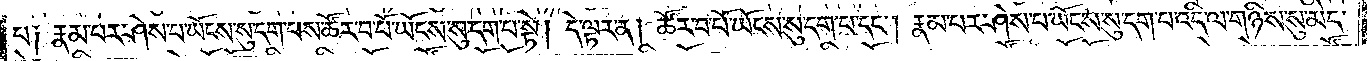པ༑ རྣམ་པར་ཤེས་པ་ཡོངས་སུ་དག་པས་ཚོར་བ་པོ་ཡོངས་སུ་དག་པ་སྟེ། དེ་ལྟར་ན། ཚོར་བ་པོ་ཡོངས་སུ་དག་པ་དང༌། རྣམ་པར་ཤེས་པ་ཡོངས་སུ་དག་པ་འདི་ལ་གཉིས་སུ་མེད་
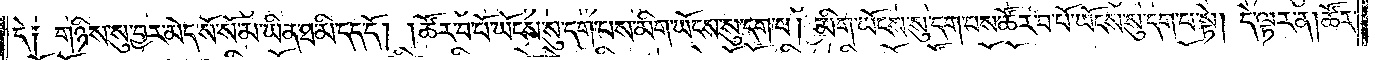དེ༑ གཉིས་སུ་བྱར་མེད་སོ་སོ་མ་ཡིན་ཐ་མི་དད་དོ། །ཚོར་བ་པོ་ཡོངས་སུ་དག་པས་མིག་ཡོངས་སུ་དག་པ། མིག་ཡོངས་སུ་དག་པས་ཚོར་བ་པོ་ཡོངས་སུ་དག་པ་སྟེ། དེ་ལྟར་ན། ཚོར་
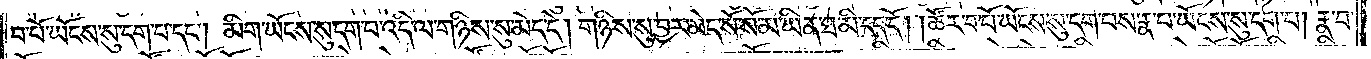བ་པོ་ཡོངས་སུ་དག་པ་དང༌། མིག་ཡོངས་སུ་དག་པ་འདི་ལ་གཉིས་སུ་མེད་དེ། གཉིས་སུ་བྱར་མེད་སོ་སོ་མ་ཡིན་ཐ་མི་དད་དོ། །ཚོར་བ་པོ་ཡོངས་སུ་དག་པས་རྣ་བ་ཡོངས་སུ་དག་པ། རྣ་བ་
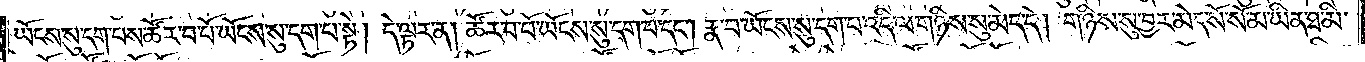ཡོངས་སུ་དག་པས་ཚོར་བ་པོ་ཡོངས་སུ་དག་པ་སྟེ། དེ་ལྟར་ན། ཚོར་བ་པོ་ཡོངས་སུ་དག་པ་དང༌། རྣ་བ་ཡོངས་སུ་དག་པ་འདི་ལ་གཉིས་སུ་མེད་དེ། གཉིས་སུ་བྱར་མེད་སོ་སོ་མ་ཡིན་ཐ་མི་
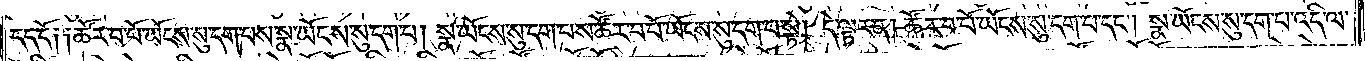དད་དོ༑ ༑ཚོར་བ་པོ་ཡོངས་སུ་དག་པས་སྣ་ཡོངས་སུ་དག་པ། སྣ་ཡོངས་སུ་དག་པས་ཚོར་བ་པོ་ཡོངས་སུ་དག་པ་སྟེ། དེ་ལྟར་ན། ཚོར་བ་པོ་ཡོངས་སུ་དག་པ་དང༌། སྣ་ཡོངས་སུ་དག་པ་འདི་ལ་
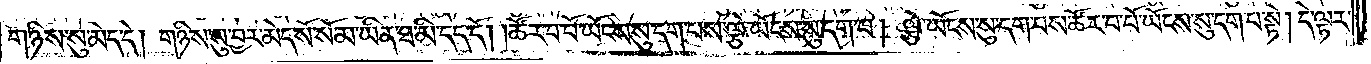གཉིས་སུ་མེད་དེ། གཉིས་སུ་བྱར་མེད་སོ་སོ་མ་ཡིན་ཐ་མི་དད་དོ། །ཚོར་བ་པོ་ཡོངས་སུ་དག་པས་ལྕེ་ཡོངས་སུ་དག་པ། ལྕེ་ཡོངས་སུ་དག་པས་ཚོར་བ་པོ་ཡོངས་སུ་དག་པ་སྟེ། དེ་ལྟར་
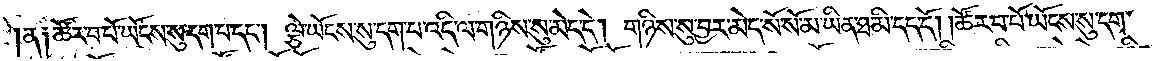ན༑ ཚོར་བ་པོ་ཡོངས་སུ་དག་པ་དང༌། ལྕེ་ཡོངས་སུ་དག་པ་འདི་ལ་གཉིས་སུ་མེད་དེ། གཉིས་སུ་བྱར་མེད་སོ་སོ་མ་ཡིན་ཐ་མི་དད་དོ། །ཚོར་བ་པོ་ཡོངས་སུ་དག་
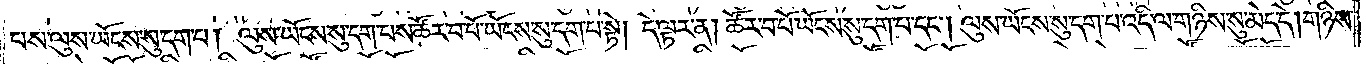པས་ལུས་ཡོངས་སུ་དག་པ། ལུས་ཡོངས་སུ་དག་པས་ཚོར་བ་པོ་ཡོངས་སུ་དག་པ་སྟེ། དེ་ལྟར་ན། ཚོར་བ་པོ་ཡོངས་སུ་དག་པ་དང༌། ལུས་ཡོངས་སུ་དག་པ་འདི་ལ་གཉིས་སུ་མེད་དེ། གཉིས་
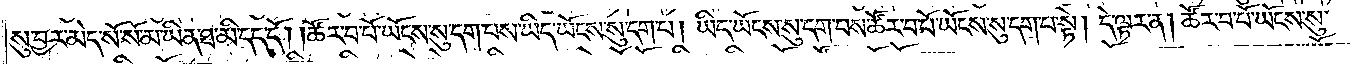སུ་བྱར་མེད་སོ་སོ་མ་ཡིན་ཐ་མི་དད་དོ། །ཚོར་བ་པོ་ཡོངས་སུ་དག་པས་ཡིད་ཡོངས་སུ་དག་པ། ཡིད་ཡོངས་སུ་དག་པས་ཚོར་བ་པོ་ཡོངས་སུ་དག་པ་སྟེ། དེ་ལྟར་ན། ཚོར་བ་པོ་ཡོངས་སུ་
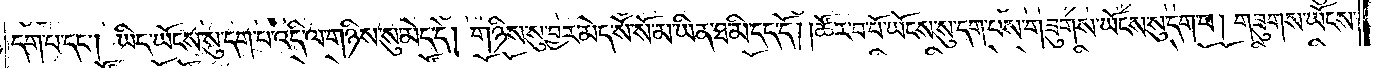དག་པ་དང༌། ཡིད་ཡོངས་སུ་དག་པ་འདི་ལ་གཉིས་སུ་མེད་དེ། གཉིས་སུ་བྱར་མེད་སོ་སོ་མ་ཡིན་ཐ་མི་དད་དོ། །ཚོར་བ་པོ་ཡོངས་སུ་དག་པས་གཟུགས་ཡོངས་སུ་དག་པ། གཟུགས་ཡོངས་
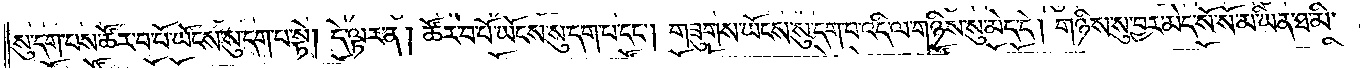སུ་དག་པས་ཚོར་བ་པོ་ཡོངས་སུ་དག་པ་སྟེ། དེ་ལྟར་ན། ཚོར་བ་པོ་ཡོངས་སུ་དག་པ་དང༌། གཟུགས་ཡོངས་སུ་དག་པ་འདི་ལ་གཉིས་སུ་མེད་དེ། གཉིས་སུ་བྱར་མེད་སོ་སོ་མ་ཡིན་ཐ་མི་
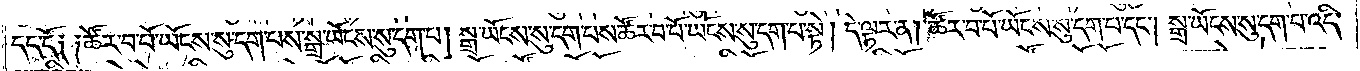དད་དོ༑ ༑ཚོར་བ་པོ་ཡོངས་སུ་དག་པས་སྒྲ་ཡོངས་སུ་དག་པ། སྒྲ་ཡོངས་སུ་དག་པས་ཚོར་བ་པོ་ཡོངས་སུ་དག་པ་སྟེ། དེ་ལྟར་ན། ཚོར་བ་པོ་ཡོངས་སུ་དག་པ་དང༌། སྒྲ་ཡོངས་སུ་དག་པ་འདི་
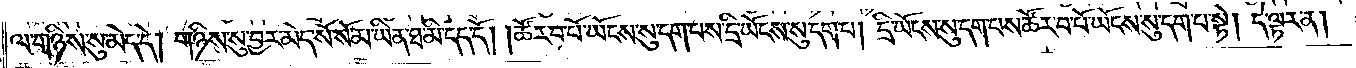ལ་གཉིས་སུ་མེད་དེ། གཉིས་སུ་བྱར་མེད་སོ་སོ་མ་ཡིན་ཐ་མི་དད་དོ། །ཚོར་བ་པོ་ཡོངས་སུ་དག་པས་དྲི་ཡོངས་སུ་དག་པ། དྲི་ཡོངས་སུ་དག་པས་ཚོར་བ་པོ་ཡོངས་སུ་དག་པ་སྟེ། དེ་ལྟར་ན།
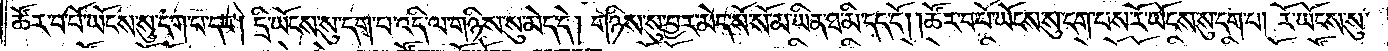ཚོར་བ་པོ་ཡོངས་སུ་དག་པ་དང༌། དྲི་ཡོངས་སུ་དག་པ་འདི་ལ་གཉིས་སུ་མེད་དེ། གཉིས་སུ་བྱར་མེད་སོ་སོ་མ་ཡིན་ཐ་མི་དད་དོ། །ཚོར་བ་པོ་ཡོངས་སུ་དག་པས་རོ་ཡོངས་སུ་དག་པ། རོ་ཡོངས་སུ་
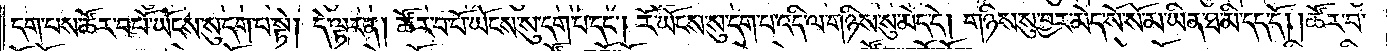དག་པས་ཚོར་བ་པོ་ཡོངས་སུ་དག་པ་སྟེ། དེ་ལྟར་ན། ཚོར་བ་པོ་ཡོངས་སུ་དག་པ་དང༌། རོ་ཡོངས་སུ་དག་པ་འདི་ལ་གཉིས་སུ་མེད་དེ། གཉིས་སུ་བྱར་མེད་སོ་སོ་མ་ཡིན་ཐ་མི་དད་དོ། །ཚོར་བ་
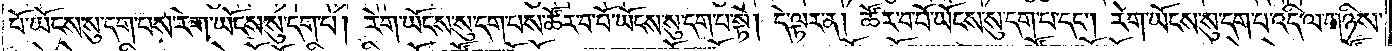པོ་ཡོངས་སུ་དག་པས་རེག་ཡོངས་སུ་དག་པ། རེག་ཡོངས་སུ་དག་པས་ཚོར་བ་པོ་ཡོངས་སུ་དག་པ་སྟེ། དེ་ལྟར་ན། ཚོར་བ་པོ་ཡོངས་སུ་དག་པ་དང༌། རེག་ཡོངས་སུ་དག་པ་འདི་ལ་གཉིས་
